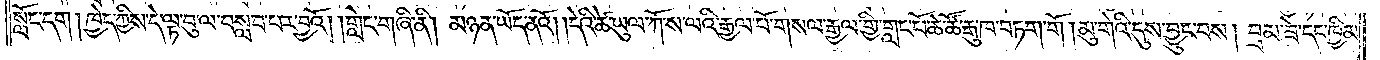སློང་དག །ཁྱེད་ཀྱིས་དེ་ལྟ་བུ་ལ་བསླབ་པར་བྱའོ། །གླེང་གཞི་ནི། མཉན་ཡོད་ནའོ། །དེའི་ཚེ་ཡུལ་ཀོ་ས་ལའི་རྒྱལ་པོ་གསལ་རྒྱལ་གྱི་གླང་པོ་ཆེ་ཚོ་རྒུ་ཁ་བཏག་གོ །མུ་གེའི་དུས་བྱུང་བས། བྲམ་ཟེ་དང་ཁྱིམ་
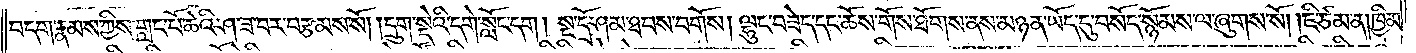བདག་རྣམས་ཀྱིས་གླང་པོ་ཆེའི་ཤ་ཟ་བར་བརྩམས་སོ། །དྲུག་སྡེའི་དགེ་སློང་དག །སྔ་དྲོ་ཤམ་ཐབས་བགོས། ལྷུང་བཟེད་དང་ཆོས་གོས་ཐོགས་ནས་མཉན་ཡོད་དུ་བསོད་སྙོམས་ལ་ཞུགས་སོ། །ཇི་ཙམ་ན། ཁྱིམ་
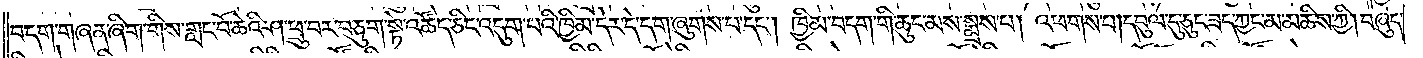བདག་གཞན་ཞིག་གིས་གླང་པོ་ཆེའི་ཤ་ཕྲུ་བར་བཅུག་སྟེ་འཚོད་ཅིང་འདུག་པའི་ཁྱིམ་དེར་དེ་དག་ཞུགས་པ་དང༌། ཁྱིམ་བདག་གི་ཆུང་མས་སྨྲས་པ། འཕགས་པ། དབུལ་དུ་ཅུང་ཟད་ཀྱང་མ་མཆིས་ཀྱི། བཞུད་
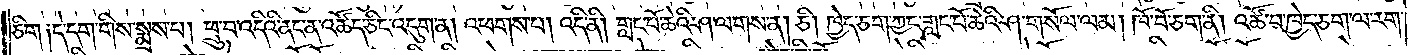ཅིག ༑དེ་དག་གིས་སྨྲས་པ། ཕྲུ་བ་འདིའི་ནང་ན་འཚོད་ཅིང་འདུག་ན། འཕགས་པ། འདི་ནི། གླང་པོ་ཆེའི་ཤ་ལགས་ན། ཅི། ཁྱེད་ཅག་ཀྱང་གླང་པོ་ཆེའི་ཤ་གསོལ་ལམ། ཁོ་བོ་ཅག་ནི། འཚོ་བ་ཁྱེད་ཅག་ལ་རག་
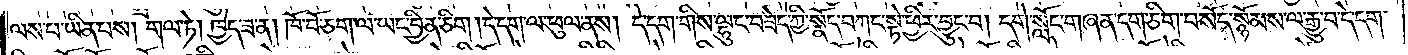ལས་པ་ཡིན་པས། གལ་ཏེ། ཁྱེད་ཟ་ན། ཁོ་བོ་ཅག་ལ་ཡང་བྱིན་ཅིག །དེ་དག་ལ་ཕུལ་ནས། དེ་དག་གིས་ལྷུང་བཟེད་ཀྱི་སྣོད་བཀང་སྟེ་ཕྱིར་བྱུང་བ། དགེ་སློང་གཞན་དག་ཅིག་བསོད་སྙོམས་ལ་རྒྱུ་བ་དེ་དག་
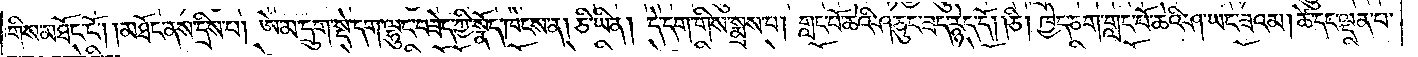གིས་མཐོང་ངོ༌། །མཐོང་ནས་དྲིས་པ། ཨེ་མ་དྲུག་སྡེ་དག་ལྷུང་བཟེད་ཀྱི་སྣོད་ཁེངས་ན། ཅི་ཡིན། དེ་དག་གིས་སྨྲས་པ། གླང་པོ་ཆེའི་ཤ་ཅུང་ཟད་རྙེད་དོ། །ཅི། ཁྱེད་ཅག་གླང་པོ་ཆེའི་ཤ་ཡང་ཟའམ། ཚེ་དང་ལྡན་པ་
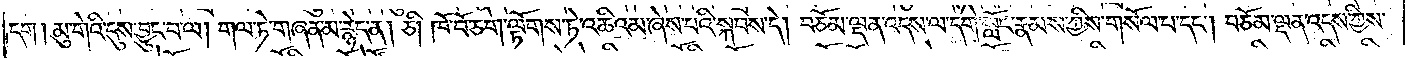དག །མུ་གེའི་དུས་བྱུང་བ་ལ། གལ་ཏེ་གཞན་མ་རྙེད་ན། ཅི། ཁོ་བོ་ཅག་ལྟོགས་ཏེ་འཆིའམ་ཞེས་པའི་སྐབས་དེ། བཅོམ་ལྡན་འདས་ལ་དགེ་སློང་རྣམས་ཀྱིས་གསོལ་པ་དང༌། བཅོམ་ལྡན་འདས་ཀྱིས་
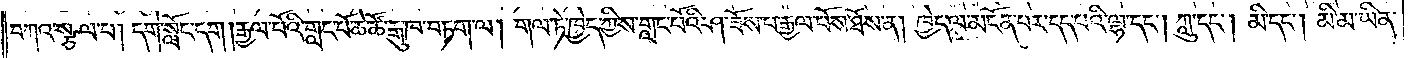བཀའ་སྩལ་པ། དགེ་སློང་དག །རྒྱལ་པོའི་གླང་པོ་ཆེ་ཚོ་རྒུ་ཁ་བཏག་ལ། གལ་ཏེ་ཁྱེད་ཀྱིས་གླང་པོའི་ཤ་ཟོས་པ་རྒྱལ་པོས་ཐོས་ན། ཁྱེད་ལ་མངོན་པར་དད་པའི་ལྷ་དང༌། ཀླུ་དང༌། མི་དང༌། མི་མ་ཡིན་
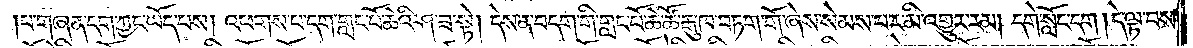པ་གཞན་དག་ཀྱང་ཡོད་པས། འཕགས་པ་དག་གླང་པོ་ཆེའི་ཤ་ཟ་སྟེ། དེས་ན་བདག་གི་གླང་པོ་ཆེ་ཚོ་རྒུ་ཁ་བཏག་གོ་ཞེས་སེམས་པར་མི་འགྱུར་རམ། དགེ་སློང་དག །དེ་ལྟ་བས་
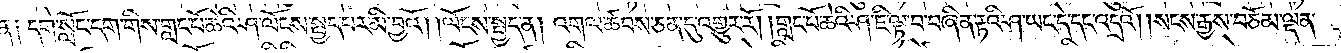ན༑ དགེ་སློང་དག་གིས་གླང་པོ་ཆེའི་ཤ་ལོངས་སྤྱད་པར་མི་བྱའོ། །ལོངས་སྤྱད་ན། འགལ་ཚབས་ཅན་དུ་འགྱུར་རོ། །གླང་པོ་ཆེའི་ཤ་ཇི་ལྟ་བ་བཞིན་རྟའི་ཤ་ཡང་དེ་དང་འདྲའོ། །སངས་རྒྱས་བཅོམ་ལྡན་
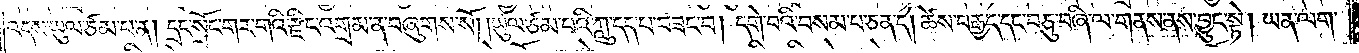འདས་ཡུལ་ཙམ་པ་ན། དྲང་སྲོང་གར་གའི་རྫིང་འགྲམ་ན་བཞུགས་སོ། །ཡུལ་ཙམ་པའི་ཀླུ་དད་པ་བཟང་བ། དགེ་བའི་བསམ་པ་ཅན་དེ། ཚེས་བརྒྱད་དང་བཅུ་བཞི་ལ་གནས་ནས་བྱུང་སྟེ། ཡན་ལག་
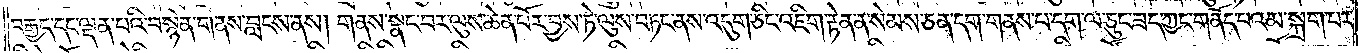བརྒྱད་དང་ལྡན་པའི་བསྙེན་གནས་བླངས་ནས། གནས་སྣང་བར་ལུས་ཆེན་པོར་བྱས་ཏེ་ལུས་བཏང་ནས་འདུག་ཅིང་འཇིག་རྟེན་ན་སེམས་ཅན་དག་གནས་པ་དག་ལ་ཅུང་ཟད་ཀྱང་གནོད་པའམ་སྐྲག་པར་
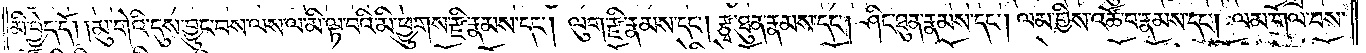མི་བྱེད་དོ། །མུ་གེའི་དུས་བྱུང་བས་ལས་ལ་མི་ལྟ་བའི་མི་ཕྱུགས་རྫི་རྣམས་དང༌། ལུག་རྫི་རྣམས་དང༌། རྩྭ་ཐུན་རྣམས་དང༌། ཤིང་ཐུན་རྣམས་དང༌། ལམ་གྱིས་འཚོ་བ་རྣམས་དང༌། ལམ་གོལ་བས་
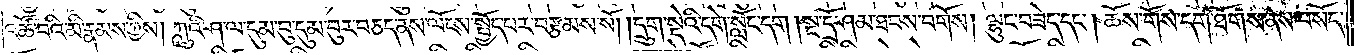འཚོ་བའི་མི་རྣམས་ཀྱིས། ཀླུའི་ཤ་ལ་དུམ་བུ་དུམ་བུར་བཅད་ནས་ལོངས་སྤྱོད་པར་བརྩམས་སོ། །དྲུག་སྡེའི་དགེ་སློང་དག །སྔ་དྲོ་ཤམ་ཐབས་བགོས། ལྷུང་བཟེད་དང༌། ཆོས་གོས་དག་ཐོགས་ནས་བསོད་
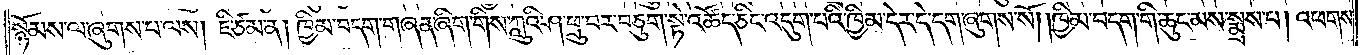སྙོམས་ལ་ཞུགས་པ་ལས། ཇི་ཙམ་ན། ཁྱིམ་བདག་གཞན་ཞིག་གིས་ཀླུའི་ཤ་ཕྲུ་བར་བཅུག་སྟེ་འཚོད་ཅིང་འདུག་པའི་ཁྱིམ་དེར་དེ་དག་ཞུགས་སོ། །ཁྱིམ་བདག་གི་ཆུང་མས་སྨྲས་པ། འཕགས་
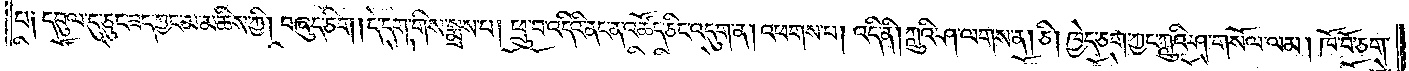པ༑ དབུལ་དུ་ཅུང་ཟད་ཀྱང་མ་མཆིས་ཀྱི། བཞུད་ཅིག །དེ་དག་གིས་སྨྲས་པ། ཕྲུ་བ་འདིའི་ནང་ན་འཚོད་ཅིང་འདུག་ན། འཕགས་པ། འདི་ནི། ཀླུའི་ཤ་ལགས་ན། ཅི། ཁྱེད་ཅག་ཀྱང་ཀླུའི་ཤ་གསོལ་ལམ། ཁོ་བོ་ཅག་
